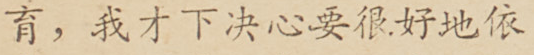育，我才下決心要更好地依
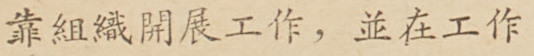靠組織開展工作，並在工作
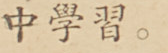中學習。
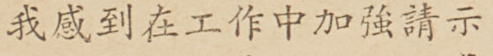我感到在工作中加強請示
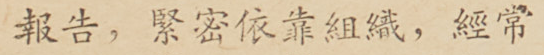報告，緊密依靠組織，經常
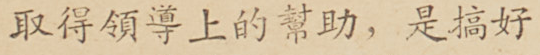取得領導上的幫助，是搞好
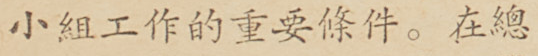小組工作的重要條件。在總
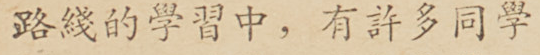路綫的學習中，有許多同學
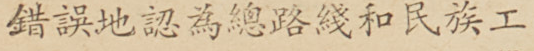錯誤地認為總路綫和民族工
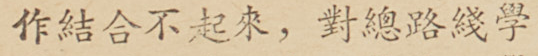作結合不起來，對總路綫學
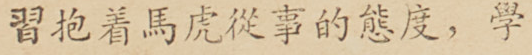習抱着馬虎從事的態度，學
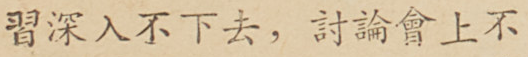習深入不下去，討論會上不
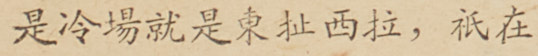是冷場就是東扯西拉，祇在
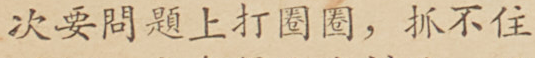次要問題上打圈圈，抓不住
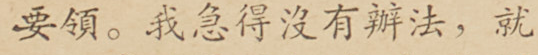要領。我急得沒有辦法，就
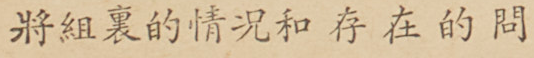將組裏的情況和存在的問
